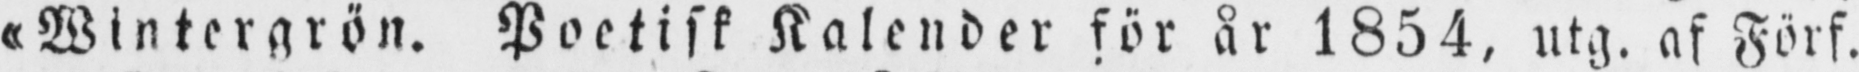»Wintergrön. Poetisk Kalender för år 1854, utg. af Förf.
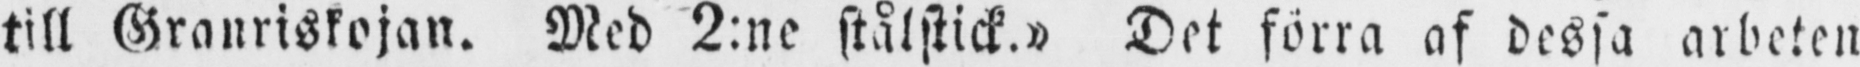till Granriskojan. Med 2:ne stålstick.» Det förra af dessa arbeten
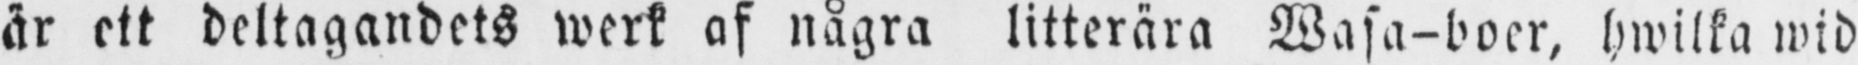är ett deltagandets werk af några litterära Wasa-boer, hwilka wid
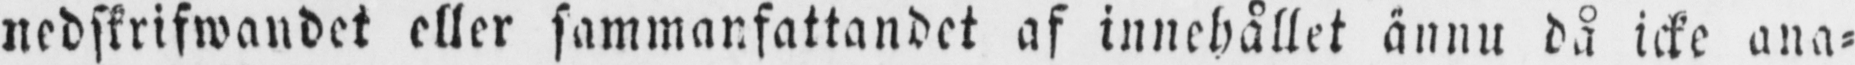nedskrifwandet eller sammanfattandet af innehållet ännu då icke ana-
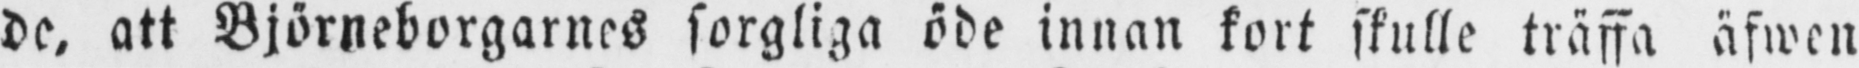de, att Björneborgarnes sorgliga öde innan kort skulle träffa äfwen
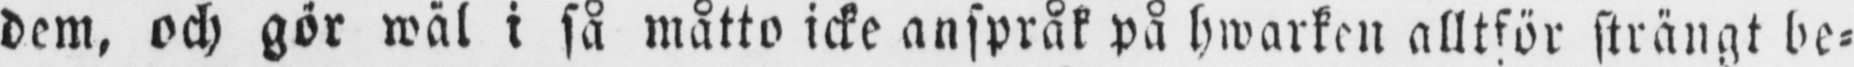dem, och gör wäl i så måtto icke anspråk på hwarken alltför strängt be-
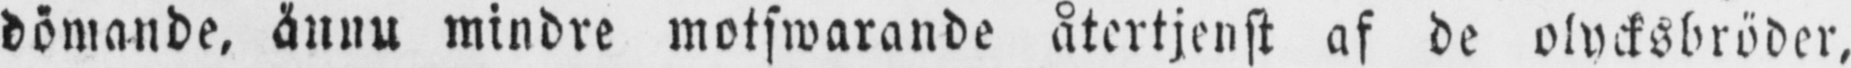dömande, ännu mindre motswarande återtjenst af de olycksbröder,
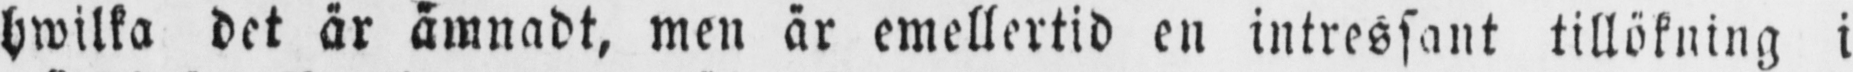hwilka det är ämnadt, men är emellertid en intressant tillökning i
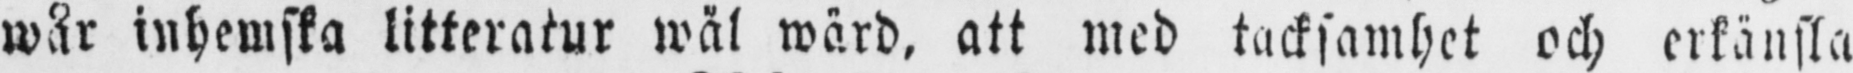wår inhemska litteratur wäl wärd, att med tacksamhet och erkänsla
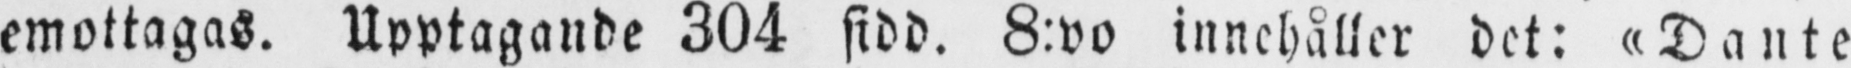emottagas. Upptagande 304 sidd. 8:vo innehåller det: «Dante
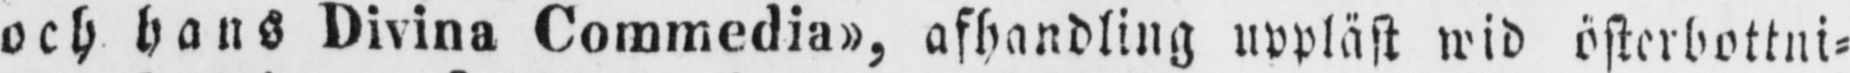och hans Divina Commedia», afhandling uppläst wid österbottni-
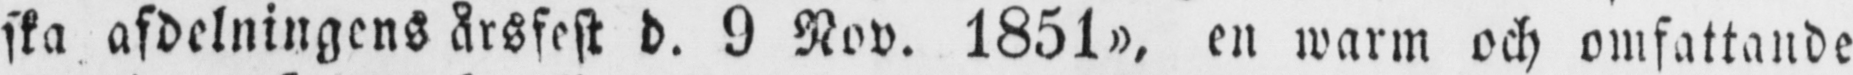ska afdelningens årsfest d. 9 Nov. 1851», en warm och omfattande
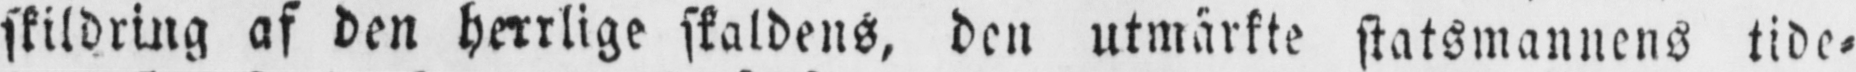skildring af den herrlige skaldens, den utmärkte statsmannens tide-
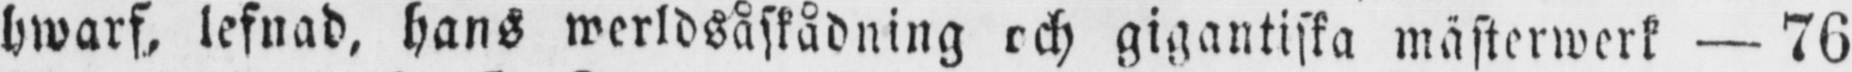hwarf, lefnad, hans werldsåskådning och gigantiska mästerwerk — 76
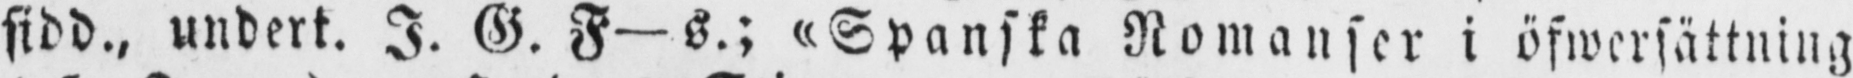sidd., undert. I. G. F—s.; "Spanska Romanser i öfwersättning
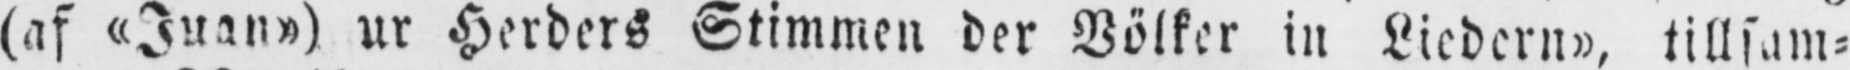(af «Juan») ur Herders Stimmen der Völker in Liedern», tillsam-
